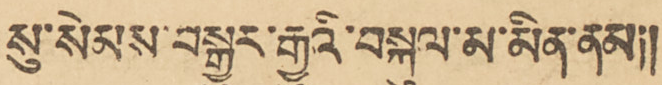སུ་སེམས་བསྒྱུར་རྒྱུའི་བསྐུལ་མ་མིན་ནམ།།
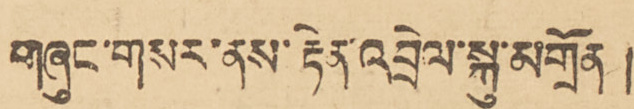གཞུང་གསལ་ནས་རྟེན་འབྲེལ་སྐུ་མགྲོན །
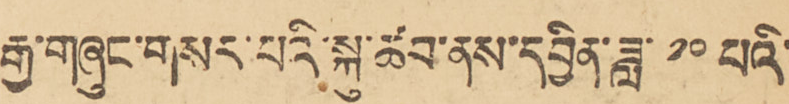རྒྱ་གཞུང་གསར་པའི་སྐུ་ཚབ་ནས་དབྱིན་ཟླ་ ༡༠ པའི་
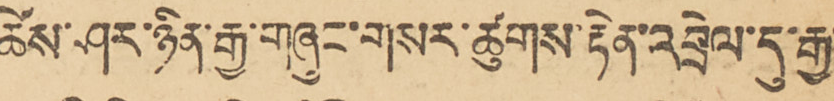ཚེས་ཤར་ཉིན་རྒྱ་གཞུང་གསར་ཚུགས་རྟེན་འབྲེལ་དུ་རྒྱ་
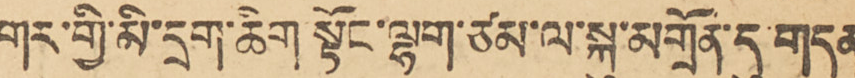གར་གྱི་མི་དྲག་ཆིག སྟོང་ལྷག་ཙམ་ལ་སྐུ་མགྲོན་དུ་གདན
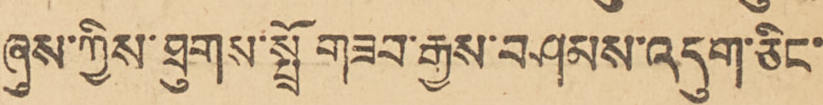ཞུས་ཀྱིས་ཐུགས་སྤྲོ གཟབ་རྒྱས་བཤམས་འདུག་ཅིང་
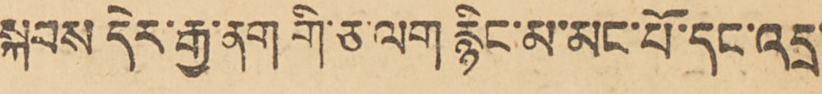སྐབས དེར་རྒྱ་ནག་གི་ཅ་ལག་རྙིང་མ་མང་པོ་དང་འདྲ་
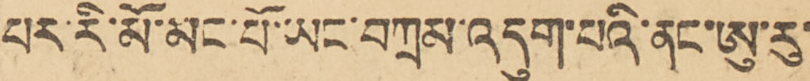པར་རི་མོ་མང་པོ་ཡང་བཀྲམ་འདུག་པའི་ནང་ཨུ་རུ་
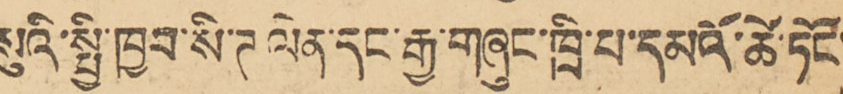སུའི་སྤྱི་ཁྱབ་སི་ཊ་ལེན་དང་རྒྱ་གཞུང་ཁྲི་པ་དམའོ་ཚེ་ཏོང་
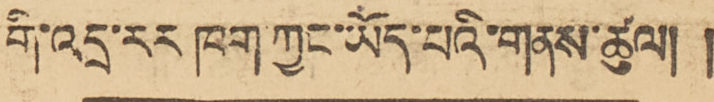གི་འདྲ་རར ཁག ཀྱང་ཡོད་པའི་གནས་ཚུལ། །
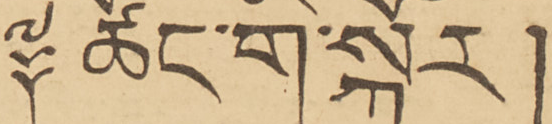༈ ཚོང་གི་སྐོར །
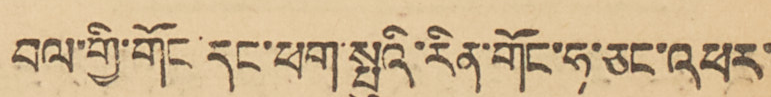བལ་གྱི་གོང་དང་ཕག་སྤུའི་རིན་གོང་ཧ་ཅང་འཕར་
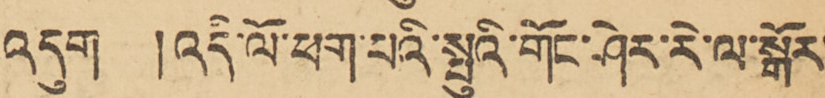འདུག །འདི་ལོ་ཕག་པའི་སྤུའི་གོང་ཤེར་རེ་ལ་སྒོར་
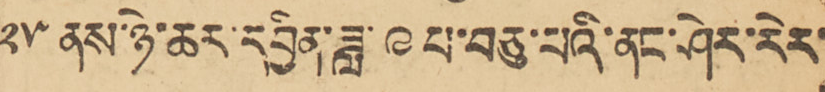༢༥ ནས་ཉེ་ཆར་དབྱིན་ཟླ་ ༩ པ་བཅུ་པའི་ནང་ཤེར་རེར་
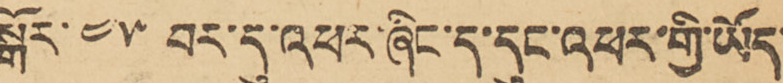སྒོར་ ༤༥ བར་དུ་འཕར་ཞིང་ད་དུང་འཕར་གྱི་ཡོད་
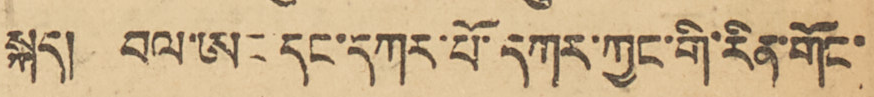སྐད། བལ་ཨང་དང་དཀར་པོ་དཀར་ཀྱང་གི་རིན་གོང་
